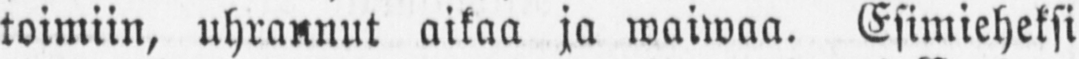toimiin, uhrannut aikaa ja waiwaa. Esimieheksi
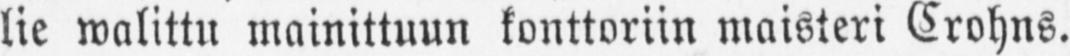lie walittu mainittuun konttoriin maisteri Crohns.
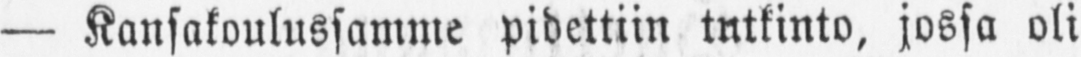— Kansakoulussamme pidettiin tutkinto, jossa oli
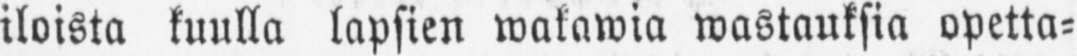iloista kuulla lapsien watawia wastauksia opetta-
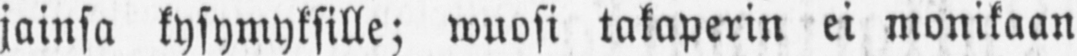jainsa kysymyksille; wuosi takaperin ei monikaan
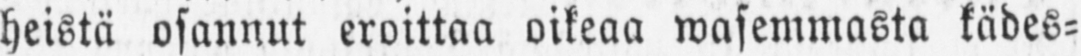heistä osannut eroittaa oikeaa wasemmasta kädes-
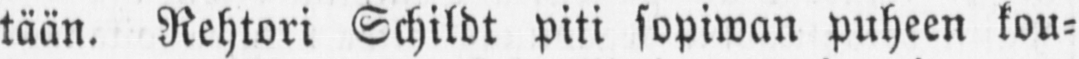tään. Rehtori Schildt piti sopiwan puheen kou-
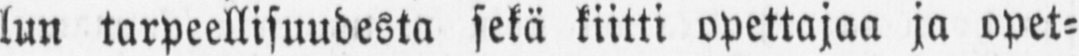lun tarpeellisuudesta sekä kiitti opettajaa ja opet-
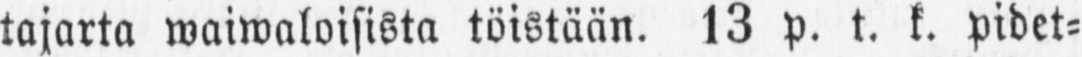tajana waiwaloisista töistään. 13 p. t. k. pidet-
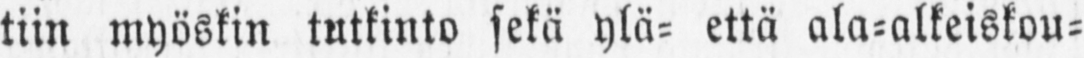tiin myöskin tutkinto sekä ylä- että ala-alkeiskou-
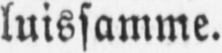luissamme.
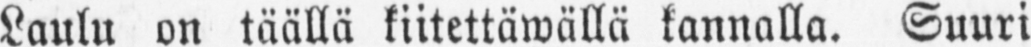Laulu on täällä kiitettäwällä kannalla. Suuri
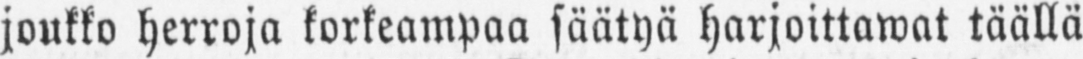joukko herroja korkeampaa säätyä harjoittawat täällä
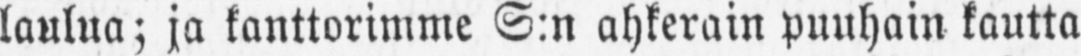laulua; ja kanttorimme S:n ahkerain puuhain kautta
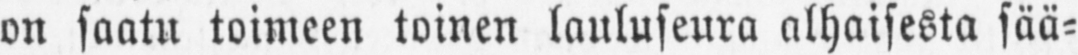on saatu toimeen toinen lauluseura alhaisesta sää-
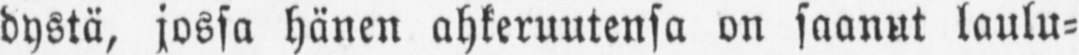dystä, jossa hänen ahkeruutensa on saanut laulu-
